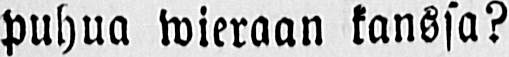puhua wieraan kanssa?
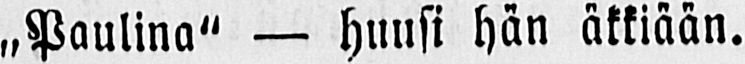„Paulina" — huusi hän äkkiään.
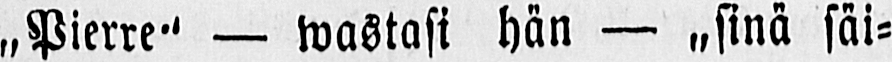„Pierre" — wastasi hän — „sinä säi-
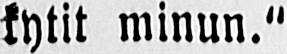kytit minun."
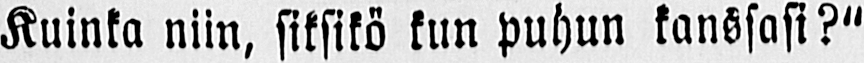„Kuinka niin, siksikö kun puhun kanssasi?"
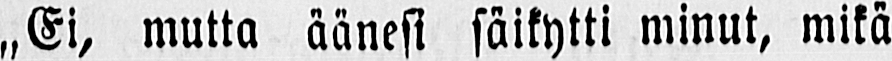„Ei, mutta äänesi säikytti minut, mikä
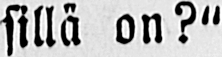sillä on?"
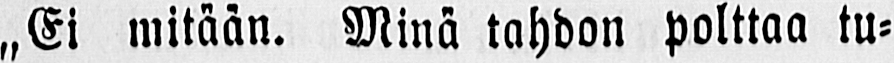„Ei mitään. Minä tahdon polttaa tu-
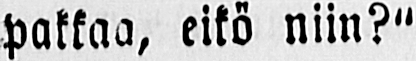pakkaa, eikö niin?"
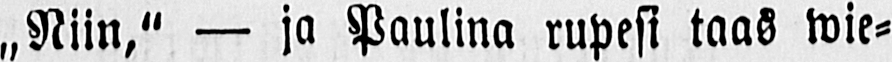„Niin," — ja Paulina rupesi taas wie-
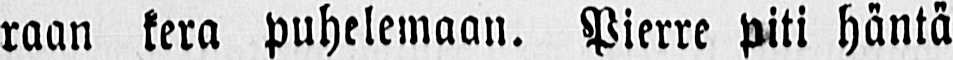raan kera puhelemaan. Pierre piti häntä
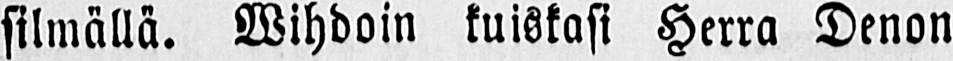silmällä. Wihdoin kuiskasi Herra Denon
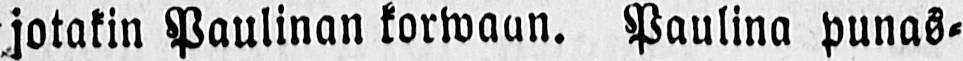Makin Paulinan korwaan. Paulina punas-
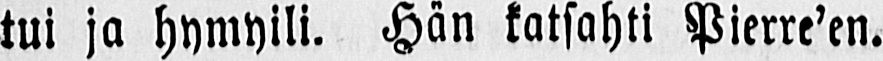tui ja hymyili. Hän katsahti Pierre’en.
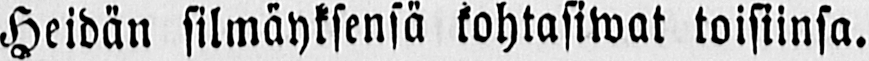Heidän silmäyksensä kohtasiwat toisiinsa.
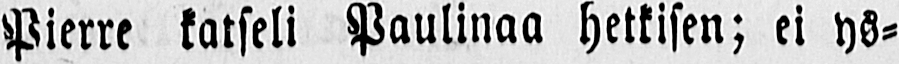Pierre katseli Paulinaa hetkisen; ei ys-
